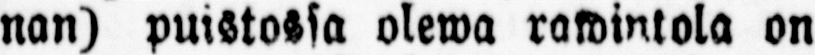nan) puistossa olewa rawintola on
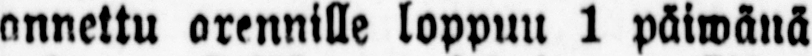annettu arennille loppuu 1 päiwänä
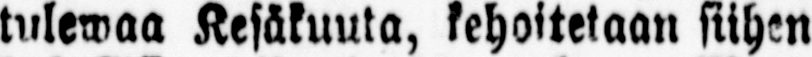tulewaa Kesäkuuta, kehoitetaan siihen
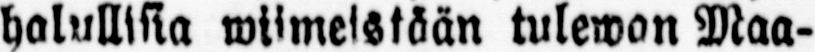halullisia wiimeistään tulewan Maa-
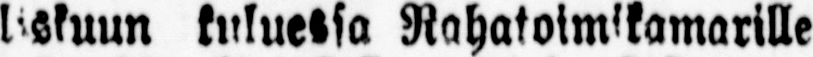liskuun kuluessa Rahatoimikamarille
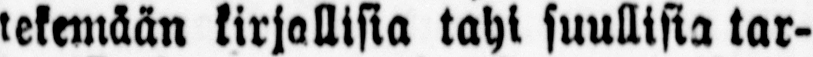tekemään kirjallisia tahi suullisia tar-
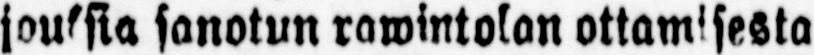jouksia sanotun rawintolan ottamisesta
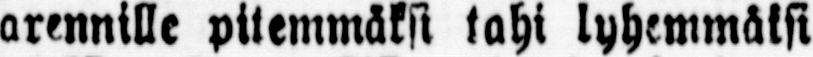arennille pitemmäksi tahi lähemmäksi
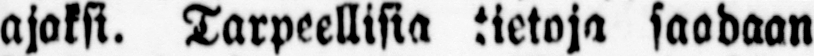ajaksi. Tarpeellisia tietoja saadaan
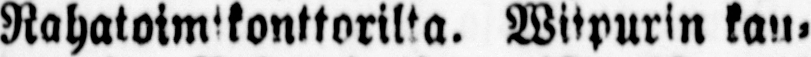Rahatoimikonttorilta. Wiipurin kau-
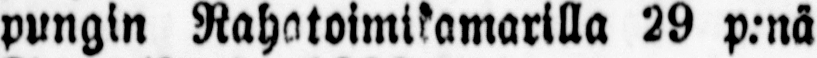pungin Rahatoimikamarilla 29 p.nä
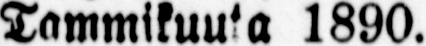Tammikuuta 1890.
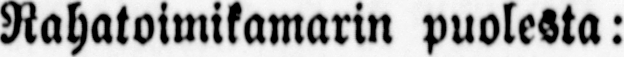Rahatoimikamarin puolesta:
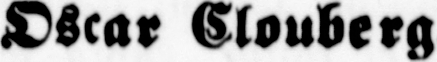Oscar Clouberg
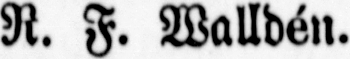R. F. Walldén.
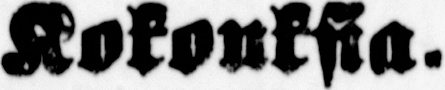Kokouksia.
